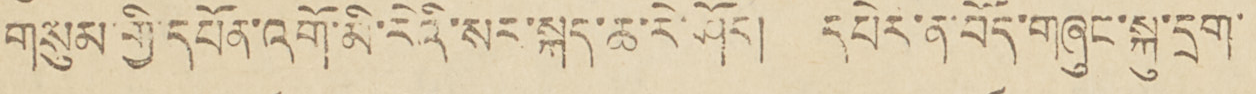གསུམ་གྱི་དཔོན་འགོ་མི་རིའི་སར་སྐད་ཆ་རེ་ཤོར། དཔེར་ན་བོད་གཞུང་སྐུ་དྲག་
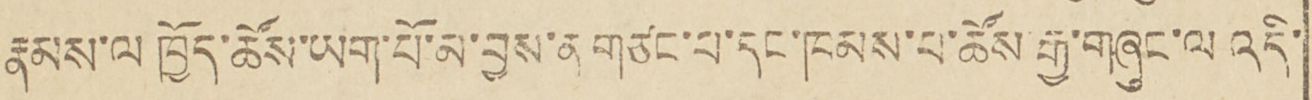རྣམས་ལ ཁྱོད་ཆོས་ཡག་པོ་མ་བྱས་ན་གཙང་པ་དང་ཁམས་པ་ཚོས་རྒྱ་གཞུང་ལ་འདི་
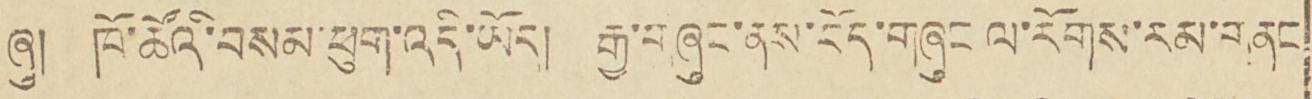ཞུ། ཁོ་ཚོའི་བསམ་ཕུག་འདི་ཡོད། རྒྱ་གཞུང་ནས་བོད་གཞུང ལ་རོགས་རམ་གནང
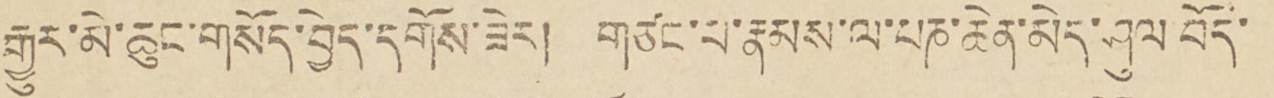རྒྱུར་མེ་ཆུང་གསོད་བྱེད་དགོས་ཟེར། གཙང་པ་རྣམས་ལ་པན་ཆེན་མེད་ཤུལ བོད་
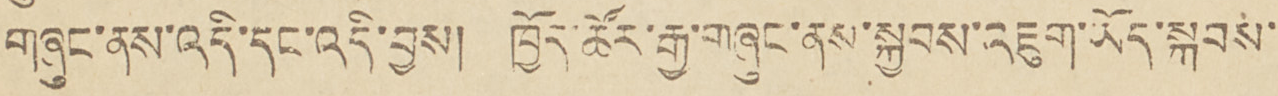གཞུང་ནས་འདི་དང་འདི་བྱས། ཁྱོད་ཚོར་རྒྱ་གཞུང་ནས་སྐྱབས་འཇུག་ཡོད་སྐབས་
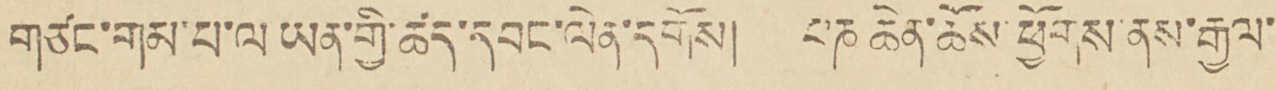གཙང་གམ་པ་ལ ཡན་གྱི་ཚད་དབང་ལེན་དགོས། པཎ་ཆེན་ཆོས་ཕྱོགས་ནས་རྒྱལ་
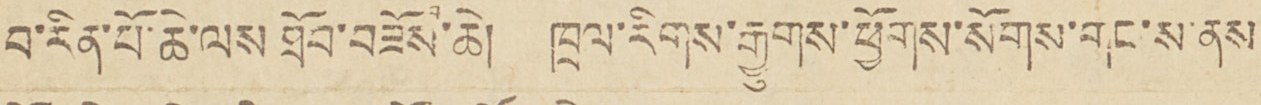བ་རིན་པོ་ཆེ་ལས ཐོབ་བཟོས་ཆེ། ཁྲལ་རིགས་རྒྱུགས་ཕྱོགས་སོགས་གང་ས་ནས་
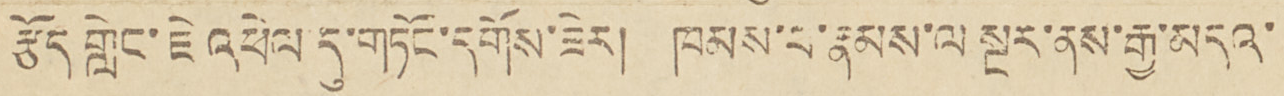རྩོད་གླེང་ཇེ འཕེལ དུ་གཏོང་དགོས་ཟེར། ཁམས་པ་རྣམས་ལ སྔར་ནས་རྒྱ་མདའ་
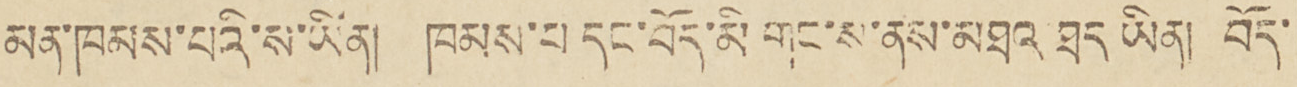མན་ཁམས་པའི་ས་ཡིན། ཁམས་པ དང་བོད་མི གང་ས་ནས་མཐའ ཐད ཡིན། བོད་
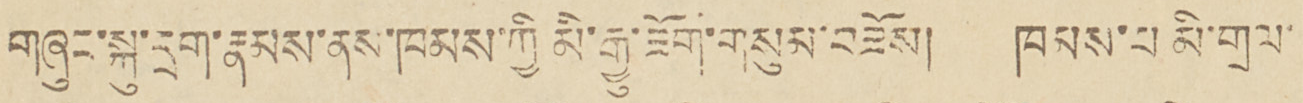གཞུང་སྐུ་དྲག་རྣམས་ནས་ཁམས་ཀྱི མི་རྒྱུ་ཟོག་གསུམ་བཟོས། །ཁམས་པ མི་གྲལ་
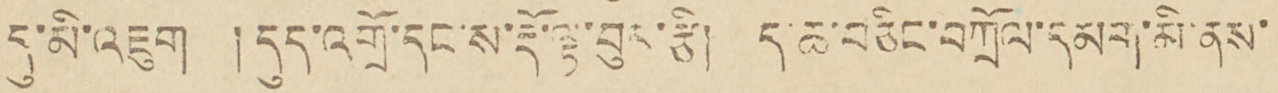དུ་མི་འཇུག །དུད་འགྲོ་དང་ས་རྡོ་ལྟ་བུར་རྩི། ད་ཆ་བཅིང་བཀྲོལ་དམག་མི་ནས་
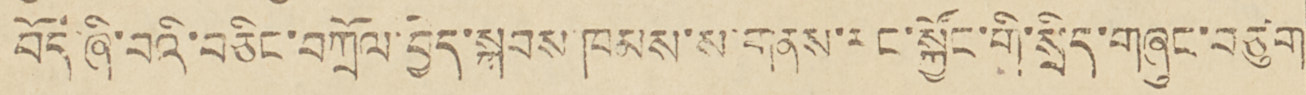བོད་ཞི་བའི་བཅིང་བཀྲོལ་བྱེད་སྐབས་ཁམས་ས་གནས་རང་ཀྱོང་གི་སྲིད་གཞུང་བཙུག
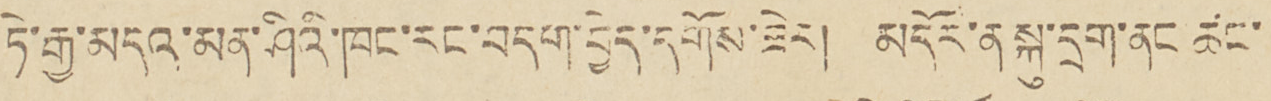ཏེ་རྒྱ་མདའ་མན་ཤིའི་ཁང་རང་བདག་བྱེད་དགོས་ཟེར། མདོར་ན་སྐུ་དྲག་ནང་ཚང་
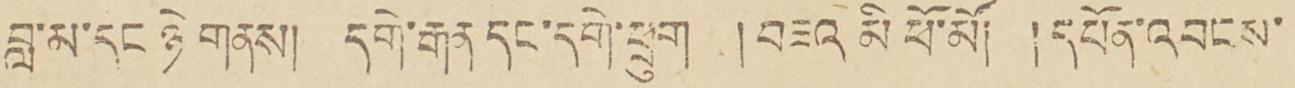བླ་མ་དང་ཉེ གནས། དགེ་རྒན་དང་དགེ་ཕྲུག །བཟའ མི ཕོ་མོ། །དཔོན་འབངས་
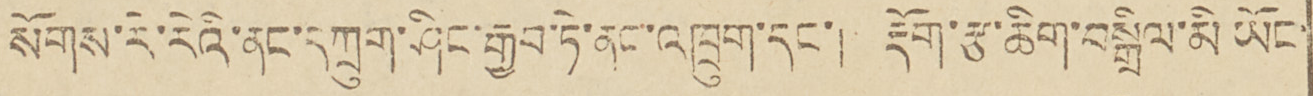སོགས་རེ་རེའི་ནང་དཀྲུག་ཤིང་རྒྱབ་ཏེ་ནང་འཁྲུག་དང་། རྡོག་རྩ་ཚིག་བསྒྲིལ་མི་ཡོང་
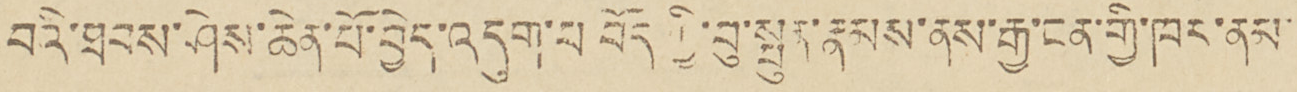པའི་ཐབས་ཤེས་ཆེན་པོ་བ་བྱེད་འདུག་པ་བོད་ཀྱི་བུ་སྤུན་རྣམས་ནས་རྒྱ་ངན་གྱི་ཁར་ནམ་
